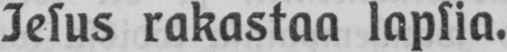Jesus rakastaa lapsia.
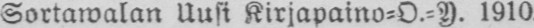Sortawalan Uusi Kirjapaino-O.-Y. 1910.
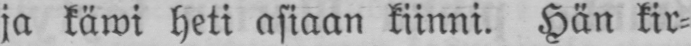ja käwi heti asiaan kiinni. Hän kir-
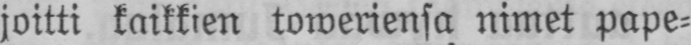joitti kaikkien toweriensa nimet pape-
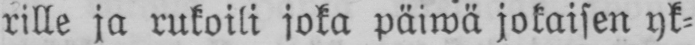rille ja rukoili joka päiwä jokaisen yk-
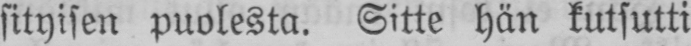sityisen puolesta. Sitte hän kutsutti
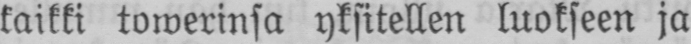kaikki towerinsa yksitellen luokseen ja
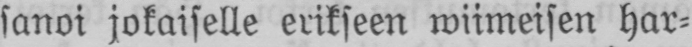sanoi jokaiselle erikseen wiimeisen har-
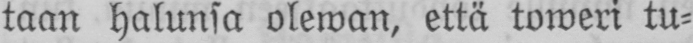taan halunsa olewan, että toweri tu-
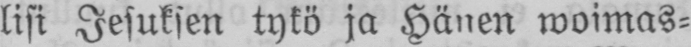lisi Jesuksen tykö ja Hänen woimas-
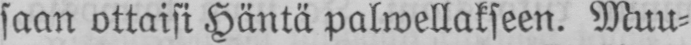saan ottaisi Häntä palwellakseen. Muu-
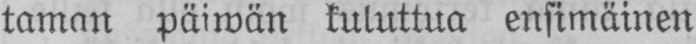taman päiwän kuluttua ensimäinen
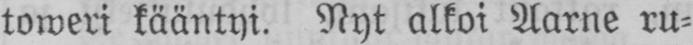toweri kääntyi. Nyt alkoi Aarne ru-
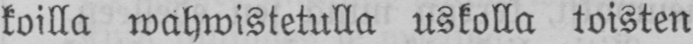koilla wahwistetulla uskolla toisten
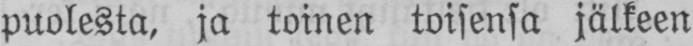puolesta, ja toinen toisensa jälkeen
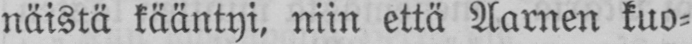näistä kääntyi, niin että Aarnen kuo-
